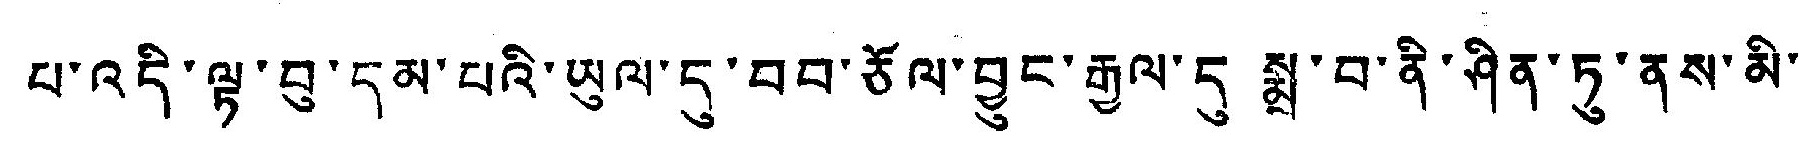ལ་འདི་ལྟ་བུ་དམ་པའི་ཡུལ་དུ་བབ་ཅོལ་བྱུང་རྒྱལ་དུ་སྨྲ་བ་ནི་ཤིན་ཏུ་ནས་མི་
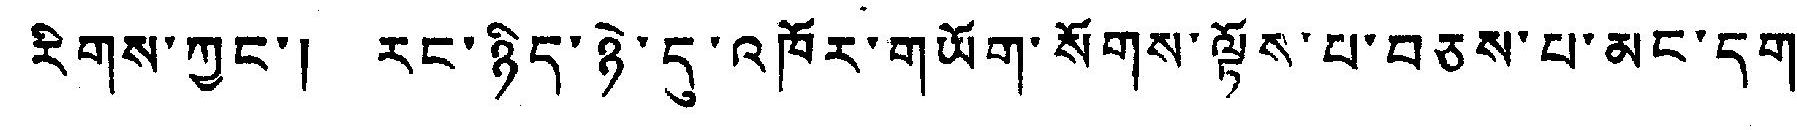རིགས་ཀྱང་། རང་ཉིད་ཉེ་དུ་འཁོར་གཡོག་སོགས་ལྟོས་པ་བཅས་པ་མང་དག་
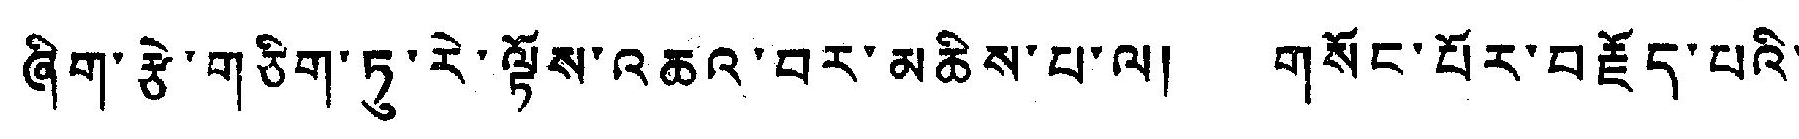ཞིག་རྩེ་གཅིག་ཏུ་རེ་ལྟོས་འཆའ་བར་མཆིས་པ་ལ། གསོང་པོར་བརྗོད་པའི་
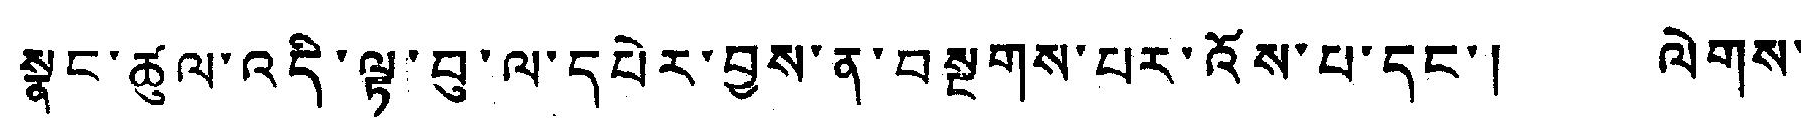སྣང་ཚུལ་འདི་ལྟ་བུ་ལ་དཔེར་བྱས་ན་བསྔགས་པར་འོས་པ་དང་། ལེགས་
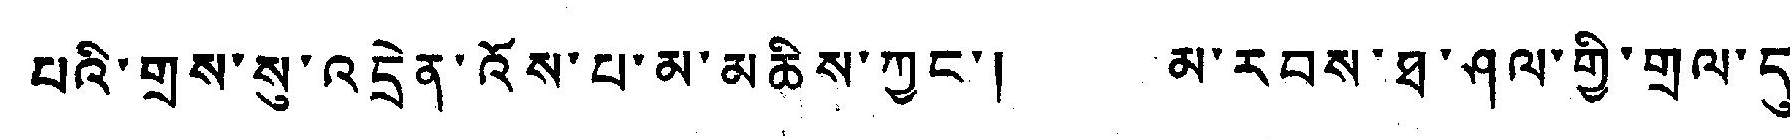པའི་གྲས་སུ་འདྲེན་འོས་པ་མ་མཆིས་ཀྱང་། མ་རབས་ཐ་ཤལ་གྱི་གྲལ་དུ་
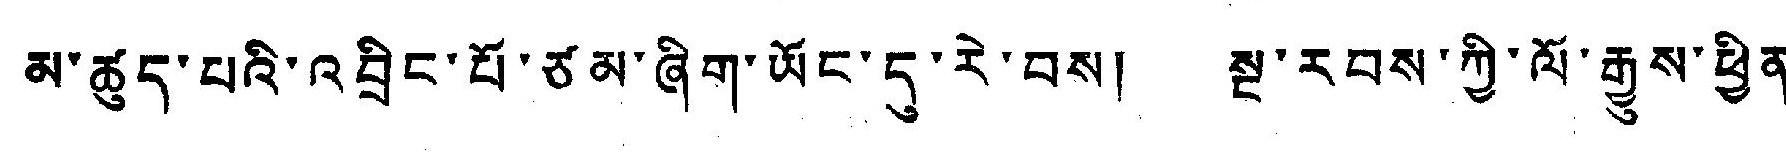མ་ཚུད་པའི་འབྲིང་པོ་ཙམ་ཞིག་ཡོང་དུ་རེ་བས། སྔ་རབས་ཀྱི་ལོ་རྒྱུས་ཕྱིན་
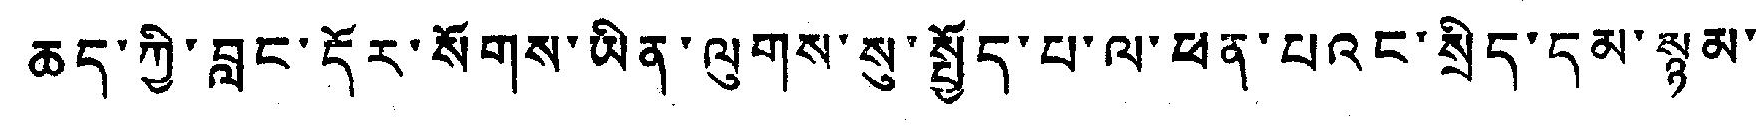ཆད་ཀྱི་བླང་དོར་སོགས་ཡིན་ལུགས་སུ་སྤྱོད་པ་ལ་ཕན་པའང་སྲིད་དམ་སྙམ་་
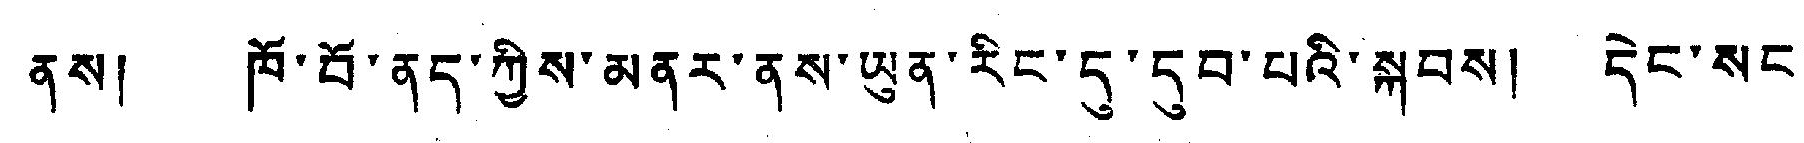ནས། ཁོ་བོ་ནད་ཀྱིས་མནར་ནས་ཡུན་རིང་དུ་དུབ་པའི་སྐབས། དེང་སང་
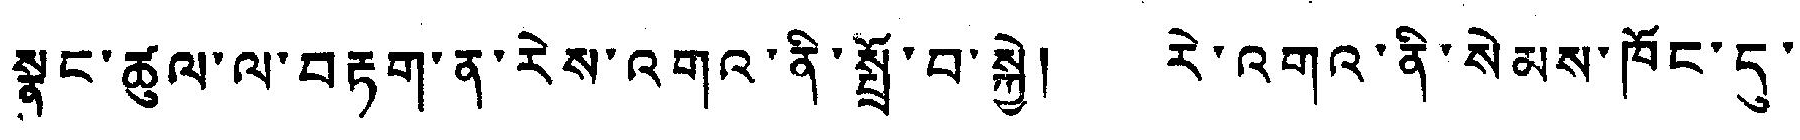སྣང་ཚུལ་ལ་བརྟག་ན་རེས་འགའ་ནི་སྤྲོ་བ་སྐྱེ། རེ་འགའ་ནི་སེམས་ཁོང་དུ་
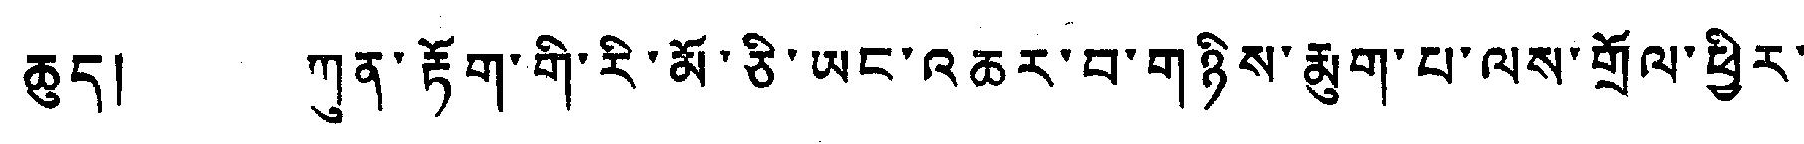ཆུད། ཀུན་རྟོག་གི་རི་མོ་ཅི་ཡང་འཆར་བ་གཉིས་རྨུག་པ་ལས་གྲོལ་ཕྱིར་
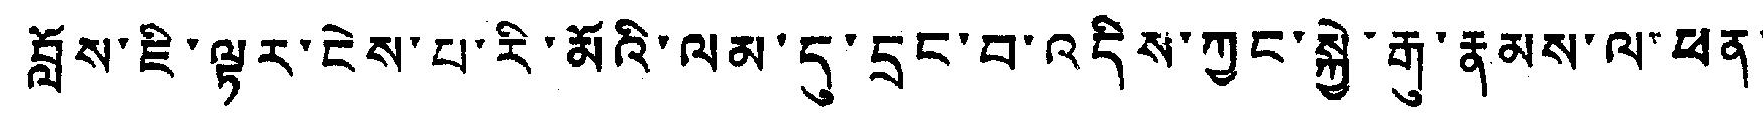བློས་ཇི་ལྟར་ངེས་པ་རི་མོའི་ལམ་དུ་དྲང་བ་འདིས་ཀྱང་སྐྱེ་རྒུ་རྣམས་ལ་ཕན་་
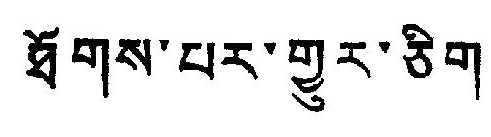ཐོགས་པར་གྱུར་ཅིག
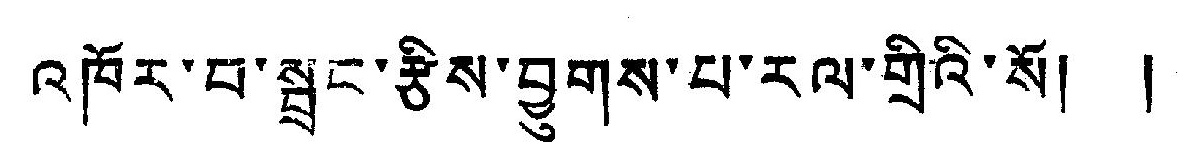འཁོར་བ་སྦྲང་རྩིས་བྱུགས་པ་རལ་གྲིའི་སོ། །
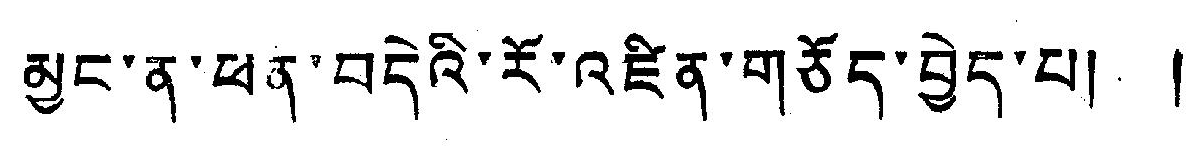མྱང་ན་ཕན་བདེའི་རོ་འཛིན་གཅོད་བྱེད་པ། །
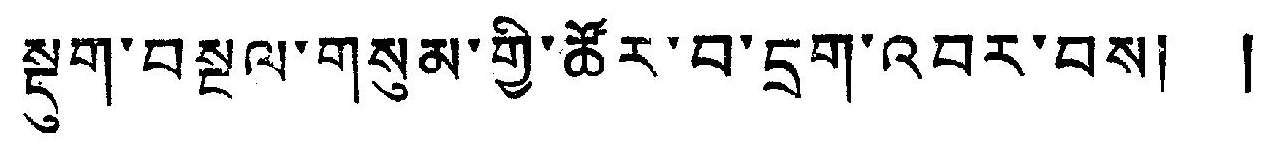སྡུག་བསྔལ་གསུམ་གྱི་ཚོར་བ་དྲག་འབར་བས། །
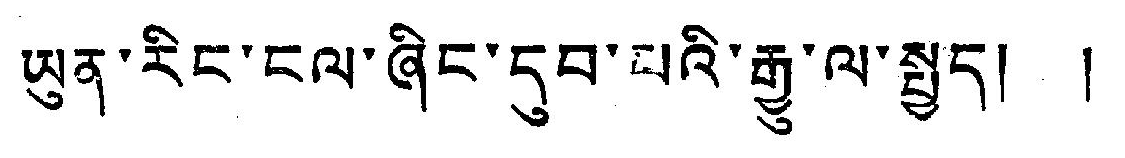ཡུན་རིང་ངལ་ཞིང་དབ་པའི་རྒྱུ་ལ་སྤྱད། །
